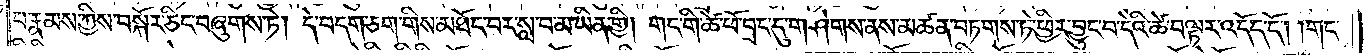པ་རྣམས་ཀྱིས་བསྐོར་ཅིང་བཞུགས་ཏེ། དེ་བདག་ཅག་གིས་མཐོང་བར་སླ་བ་མ་ཡིན་གྱི། གང་གི་ཚེ་ཕོ་བྲང་དུ་གཤེགས་ནས་མཚན་བཏགས་ཏེ་ཕྱིར་བྱུང་བ་དེའི་ཚེ་བལྟར་འདོད་དོ། །གང་
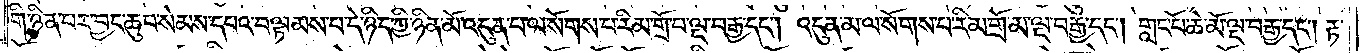གི་ཉིན་པར་བྱང་ཆུབ་སེམས་དཔའ་བལྟམས་པ་དེ་ཉིད་ཀྱི་ཉིན་མོ་འདུན་པ་ལ་སོགས་པ་རིམ་གྲོ་པ་ལྔ་བརྒྱ་དང༌། འདུན་མ་ལ་སོགས་པ་རིམ་གྲོ་མ་ལྔ་བརྒྱ་དང༌། གླང་པོ་ཆེ་མོ་ལྔ་བརྒྱ་དང༌། རྟ་
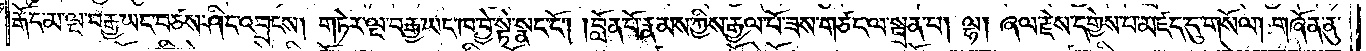རྒོད་མ་ལྔ་བརྒྱ་ཡང་བཅས་ཤིང་འབྲངས། གཏེར་ལྔ་བརྒྱ་ཡང་ཁ་བྱེ་སྟེ་སྣང་ངོ༌། །བློན་པོ་རྣམས་ཀྱིས་རྒྱལ་པོ་ཟས་གཙང་ལ་སྦྲན་པ། ལྷ། ཞལ་རྗེས་དགྱེས་པ་མཛད་དུ་གསོལ། གཞོན་ནུ་
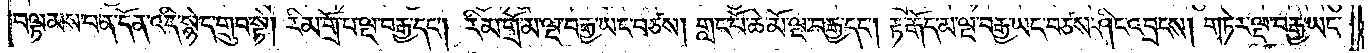བལྟམས་པ་ན་དོན་འདི་སྙེད་གྲུབ་སྟེ། རིམ་གྲོ་པ་ལྔ་བརྒྱ་དང༌། རིམ་གྲོ་མ་ལྔ་བརྒྱ་ཡང་བཙས། གླང་པོ་ཆེ་མོ་ལྔ་བརྒྱ་དང༌། རྟ་རྒོད་མ་ལྔ་བརྒྱ་ཡང་བཙས་ཤིང་འབྲངས། གཏེར་ལྔ་བརྒྱ་ཡང་
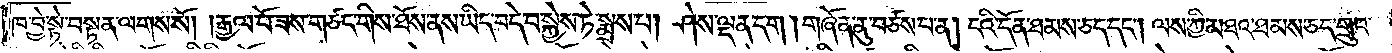ཁ་བྱེ་སྟེ་བསྟན་ལགས་སོ། །རྒྱལ་པོ་ཟས་གཙང་གིས་ཐོས་ནས་ཡིད་བདེ་བ་སྐྱེས་ཏེ་སྨྲས་པ། ཤེས་ལྡན་དག །གཞོན་ནུ་བཙས་པ་ན། ངའི་དོན་ཐམས་ཅད་དང༌། ལས་ཀྱི་མཐའ་ཐམས་ཅད་གྲུབ་
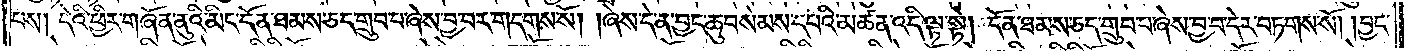པས། དེའི་ཕྱིར་གཞོན་ནུའི་མིང་དོན་ཐམས་ཅད་གྲུབ་པ་ཞེས་བྱ་བར་གདགས་སོ། །ཞེས་དེ་ན་བྱང་ཆུབ་སེམས་དཔའི་མཚན་འདི་ལྟ་སྟེ། དོན་ཐམས་ཅད་གྲུབ་པ་ཞེས་བྱ་བ་དེར་བཏགས་སོ། །བྱང་
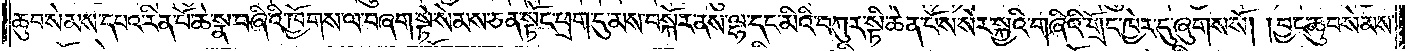ཆུབ་སེམས་དཔའ་རིན་པོ་ཆེ་སྣ་བཞིའི་ཁྱོགས་ལ་བཞག་སྟེ་སེམས་ཅན་སྟོང་ཕྲག་དུ་མས་བསྐོར་ནས་ལྷ་དང་མིའི་བཀུར་སྟི་ཆེན་པོས་སེར་སྐྱའི་གཞིའི་གྲོང་ཁྱེར་དུ་ཞུགས་སོ། །བྱང་ཆུབ་སེམས་
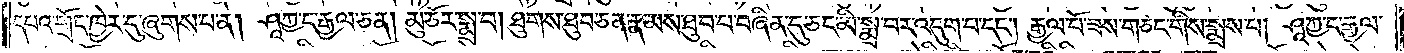དཔའ་གྲོང་ཁྱེར་དུ་ཞུགས་པ་ན། ཤཱཀྱ་ང་རྒྱལ་ཅན། མུ་ཅོར་སྨྲ་བ། ཐུགས་ཐུབ་ཅན་རྣམས་ཐུབ་པ་བཞིན་དུ་ཅང་མི་སྨྲ་བར་འདུག་པ་དང༌། རྒྱལ་པོ་ཟས་གཙང་གིས་སྨྲས་པ། ཤཱཀྱ་ང་རྒྱལ་
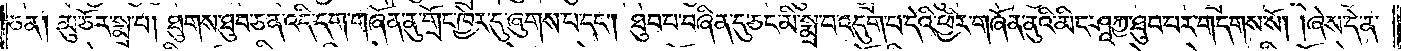ཅན། མུ་ཅོར་སྨྲ་པ། ཐུགས་ཐུབ་ཅན་འདི་དག་གཞོན་ནུ་གྲོང་ཁྱེར་དུ་ཞུགས་པ་དང༌། ཐུབ་པ་བཞིན་དུ་ཅང་མི་སྨྲ་བ་འདུག་པ་དེའི་ཕྱིར་གཞོན་ནུའི་མིང་ཤཱཀྱ་ཐུབ་པར་གདགས་སོ། །ཞེས་དེ་ན་
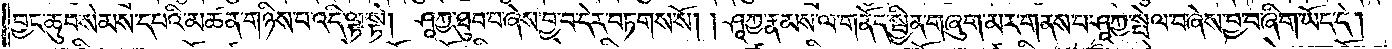བྱང་ཆུབ་སེམས་དཔའི་མཚན་གཉིས་པ་འདི་ལྟ་སྟེ། ཤཱཀྱ་ཐུབ་པ་ཞེས་བྱ་བ་དེར་བཏགས་སོ། །ཤཱཀྱ་རྣམས་ལ་གནོད་སྦྱིན་གཞུག་མར་གནས་པ་ཤཱཀྱ་སྤེལ་བ་ཞེས་བྱ་བ་ཞིག་ཡོད་དེ།
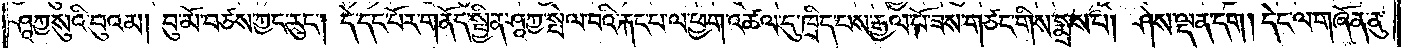ཤཱཀྱ་སུའི་བུའམ། བུ་མོ་བཙས་ཀྱང་རུང༌། དེ་དང་པོར་གནོད་སྦྱིན་ཤཱཀྱ་སྤེལ་བའི་རྐང་པ་ལ་ཕྱག་འཚལ་དུ་ཁྲིད་པས་རྒྱལ་པོ་ཟས་གཙང་གིས་སྨྲས་པ། ཤེས་ལྡན་དག །དེང་ལ་གཞོན་ནུ་
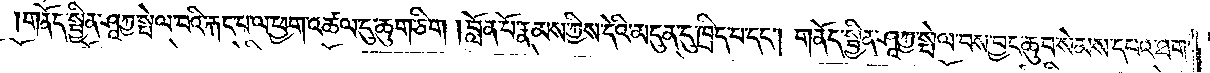གནོད་སྦྱིན་ཤཱཀྱ་སྤེལ་བའི་རྐང་པ་ལ་ཕྱག་འཚལ་དུ་ཆུག་ཅིག །བློན་པོ་རྣམས་ཀྱིས་དེའི་མདུན་དུ་ཁྲིད་པ་དང༌། གནོད་སྦྱིན་ཤཱཀྱ་སྤེལ་བས་བྱང་ཆུབ་སེམས་དཔའ་ཐག་
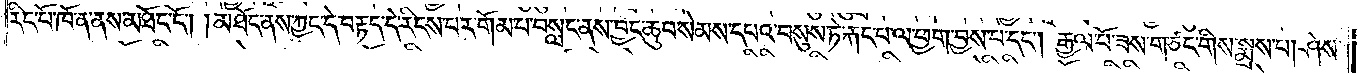རིང་པོ་ཁོ་ན་ནས་མཐོང་ངོ༌། །མཐོང་ནས་ཀྱང་དེ་བརྟད་དེ་རིངས་པར་གོམ་པ་བསླང་ནས་བྱང་ཆུབ་སེམས་དཔའ་བསུས་ཏེ་རྐང་པ་ལ་ཕྱག་བྱས་པ་དང༌། རྒྱལ་པོ་ཟས་གཙང་གིས་སྨྲས་པ། ཤེས་
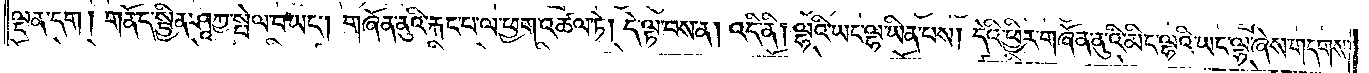ལྡན་དག། གནོད་སྦྱིན་ཤཱཀྱ་སྤེལ་བ་ཡང༌། གཞོན་ནུའི་རྐང་པ་ལ་ཕྱག་འཚལ་ཏེ། དེ་ལྟ་བས་ན། འདི་ནི། ལྷའི་ཡང་ལྷ་ཡིན་པས། དེའི་ཕྱིར་གཞོན་ནུའི་མིང་ལྷའི་ཡང་ལྷ་ཞེས་གདགས་
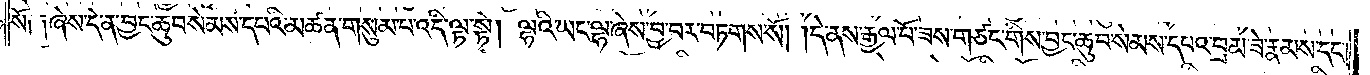སོ༑ ༑ཞེས་དེ་ན་བྱང་ཆུབ་སེམས་དཔའི་མཚན་གསུམ་པ་འདི་ལྟ་སྟེ། ལྷའི་ཡང་ལྷ་ཞེས་བྱ་བར་བཏགས་སོ། །དེ་ནས་རྒྱལ་པོ་ཟས་གཙང་གིས་བྱང་ཆུབ་སེམས་དཔའ་བྲམ་ཟེ་རྣམས་དང༌།
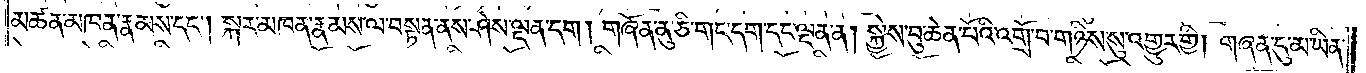མཚན་མཁན་རྣམས་དང༌། སྐར་མཁན་རྣམས་ལ་བསྟན་ནས་ཤེས་ལྡན་དག། གཞོན་ནུ་ཅི་གང་དག་དང་ལྡན་ན། སྐྱེས་བུ་ཆེན་པོའི་འགྲོ་བ་གཉིས་སུ་འགྱུར་གྱི། གཞན་དུ་མ་ཡིན་
